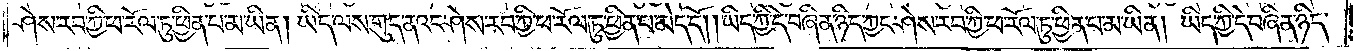ཤེས་རབ་ཀྱི་ཕ་རོལ་ཏུ་ཕྱིན་པ་མ་ཡིན། །ཡིད་ལས་གུད་ནའང་ཤེས་རབ་ཀྱི་ཕ་རོལ་ཏུ་ཕྱིན་པ་མེད་དོ། །ཡིད་ཀྱི་དེ་བཞིན་ཉིད་ཀྱང་ཤེས་རབ་ཀྱི་ཕ་རོལ་ཏུ་ཕྱིན་པ་མ་ཡིན། ཡིད་ཀྱི་དེ་བཞིན་ཉིད་
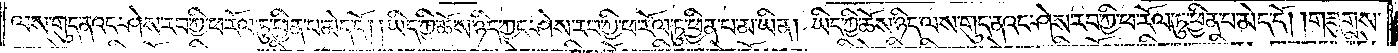ལས་གུད་ནའང་ཤེས་རབ་ཀྱི་ཕ་རོལ་ཏུ་ཕྱིན་པ་མེད་དོ། ། ཡིད་ཀྱི་ཆོས་ཉིད་ཀྱང་ཤེས་རབ་ཀྱི་ཕ་རོལ་ཏུ་ཕྱིན་པ་མ་ཡིན། ཡིད་ཀྱི་ཆོས་ཉིད་ལས་གུད་ནའང་ཤེས་རབ་ཀྱི་ཕ་རོལ་ཏུ་ཕྱིན་པ་མེད་དོ། །གཟུགས་
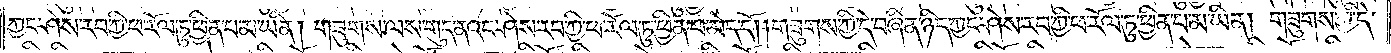ཀྱང་ཤེས་རབ་ཀྱི་ཕ་རོལ་ཏུ་ཕྱིན་པ་མ་ཡིན། གཟུགས་ལས་གུད་ནའང་ཤེས་རབ་ཀྱི་ཕ་རོལ་ཏུ་ཕྱིན་པ་མེད་དོ། །གཟུགས་ཀྱི་དེ་བཞིན་ཉིད་ཀྱང་ཤེས་རབ་ཀྱི་ཕ་རོལ་ཏུ་ཕྱིན་པ་མ་ཡིན། གཟུགས་ཀྱི་དེ་
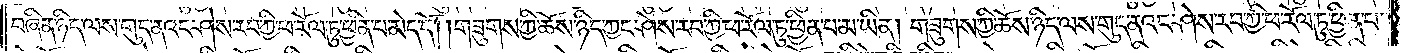བཞིན་ཉིད་ལས་གུད་ནའང་ཤེས་རབ་ཀྱི་ཕ་རོལ་ཏུ་ཕྱིན་པ་མེད་དོ། །གཟུགས་ཀྱི་ཆོས་ཉིད་ཀྱང་ཤེས་རབ་ཀྱི་ཕ་རོལ་ཏུ་ཕྱིན་པ་མ་ཡིན། གཟུགས་ཀྱི་ཆོས་ཉིད་ལས་གུད་ནའང་ཤེས་རབ་ཀྱི་ཕ་རོལ་ཏུ་ཕྱིན་པ་
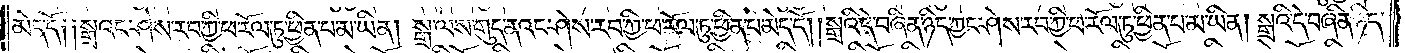མེད་དོ། །སྒྲའང་ཤེས་རབ་ཀྱི་ཕ་རོལ་ཏུ་ཕྱིན་པ་མ་ཡིན། སྒྲ་ལས་གུད་ནའང་ཤེས་རབ་ཀྱི་ཕ་རོལ་ཏུ་ཕྱིན་པ་མེད་དོ། །སྒྲའི་དེ་བཞིན་ཉིད་ཀྱང་ཤེས་རབ་ཀྱི་ཕ་རོལ་ཏུ་ཕྱིན་པ་མ་ཡིན། སྒྲའི་དེ་བཞིན་ཉིད་
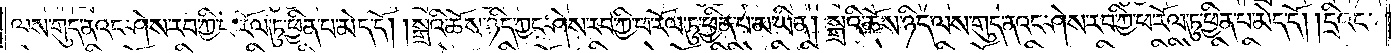ལས་གུད་ནའང་ཤེས་རབ་ཀྱི་ཕ་རོལ་ཏུ་ཕྱིན་པ་མེད་དོ། །སྒྲའི་ཆོས་ཉིད་ཀྱང་ཤེས་རབ་ཀྱི་ཕ་རོལ་ཏུ་ཕྱིན་པ་མ་ཡིན། སྒྲའི་ཆོས་ཉིད་ལས་གུད་ནའང་ཤེས་རབ་ཀྱི་ཕ་རོལ་ཏུ་ཕྱིན་པ་མེད་དོ། །དྲིའང་
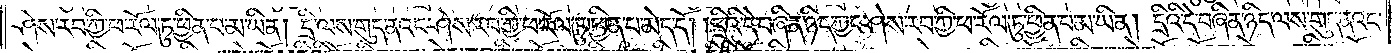ཤེས་རབ་ཀྱི་ཕ་རོལ་ཏུ་ཕྱིན་པ་མ་ཡིན། དྲི་ལས་གུད་ནའང་ཤེས་རབ་ཀྱི་ཕ་རོལ་ཏུ་ཕྱིན་པ་མེད་དོ། །དྲིའི་དེ་བཞིན་ཉིད་ཀྱང་ཤེས་རབ་ཀྱི་ཕ་རོལ་ཏུ་ཕྱིན་པ་མ་ཡིན། དྲིའི་དེ་བཞིན་ཉིད་ལས་གུད་ནའང་
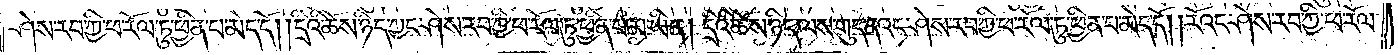ཤེས་རབ་ཀྱི་ཕ་རོལ་ཏུ་ཕྱིན་པ་མེད་དོ། །དྲིའི་ཆོས་ཉིད་ཀྱང་ཤེས་རབ་ཀྱི་ཕ་རོལ་ཏུ་ཕྱིན་པ་མ་ཡིན། དྲིའི་ཆོས་ཉིད་ལས་གུད་ནའང་ཤེས་རབ་ཀྱི་ཕ་རོལ་ཏུ་ཕྱིན་པ་མེད་དོ། །རོའང་ཤེས་རབ་ཀྱི་ཕ་རོལ་
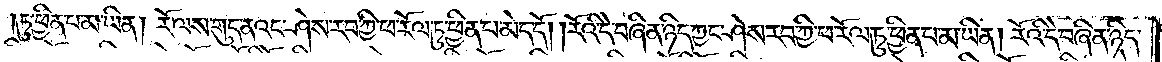ཏུ་ཕྱིན་པ་མ་ཡིན། རོ་ལས་གུད་ནའང་ཤེས་རབ་ཀྱི་ཕ་རོལ་ཏུ་ཕྱིན་པ་མེད་དོ། །རོའི་དེ་བཞིན་ཉིད་ཀྱང་ཤེས་རབ་ཀྱི་ཕ་རོལ་ཏུ་ཕྱིན་པ་མ་ཡིན། རོའི་དེ་བཞིན་ཉིད་
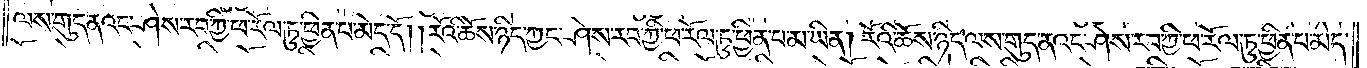ལས་གུད་ནའང་ཤེས་རབ་ཀྱི་ཕ་རོལ་ཏུ་ཕྱིན་པ་མེད་དོ། །རོའི་ཆོས་ཉིད་ཀྱང་ཤེས་རབ་ཀྱི་ཕ་རོལ་ཏུ་ཕྱིན་པ་མ་ཡིན། རོའི་ཆོས་ཉིད་ལས་གུད་ནའང་ཤེས་རབ་ཀྱི་ཕ་རོལ་ཏུ་ཕྱིན་པ་མེད་
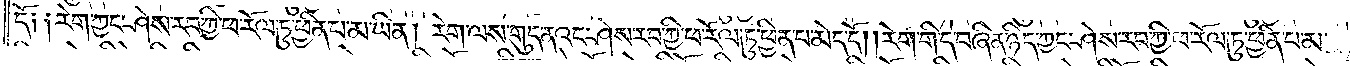དོ། །རེག་ཀྱང་ཤེས་རབ་ཀྱི་ཕ་རོལ་ཏུ་ཕྱིན་པ་མ་ཡིན། རེག་ལས་གུད་ནའང་ཤེས་རབ་ཀྱི་ཕ་རོལ་ཏུ་ཕྱིན་པ་མེད་དོ། །རེག་གི་དེ་བཞིན་ཉིད་ཀྱང་ཤེས་རབ་ཀྱི་ཕ་རོལ་ཏུ་ཕྱིན་པ་མ་
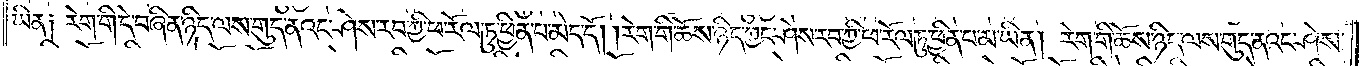ཡིན། རེག་གི་དེ་བཞིན་ཉིད་ལས་གུད་ནའང་ཤེས་རབ་ཀྱི་ཕ་རོལ་ཏུ་ཕྱིན་པ་མེད་དོ། །རེག་གི་ཆོས་ཉིད་ཀྱང་ཤེས་རབ་ཀྱི་ཕ་རོལ་ཏུ་ཕྱིན་པ་མ་ཡིན། རེག་གི་ཆོས་ཉིད་ལས་གུད་ནའང་ཤེས་
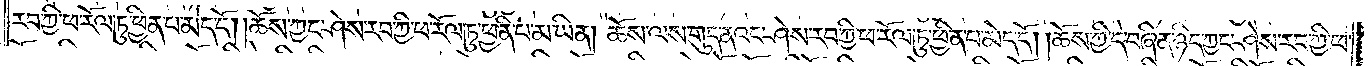རབ་ཀྱི་ཕ་རོལ་ཏུ་ཕྱིན་པ་མེད་དོ། །ཆོས་ཀྱང་ཤེས་རབ་ཀྱི་ཕ་རོལ་ཏུ་ཕྱིན་པ་མ་ཡིན། ཆོས་ལས་གུད་ནའང་ཤེས་རབ་ཀྱི་ཕ་རོལ་ཏུ་ཕྱིན་པ་མེད་དོ། །ཆོས་ཀྱི་དེ་བཞིན་ཉིད་ཀྱང་ཤེས་རབ་ཀྱི་ཕ་
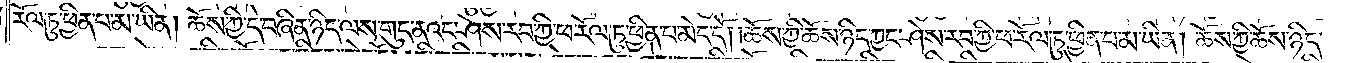རོལ་ཏུ་ཕྱིན་པ་མ་ཡིན། ཆོས་ཀྱི་དེ་བཞིན་ཉིད་ལས་གུད་ནའང་ཤེས་རབ་ཀྱི་ཕ་རོལ་ཏུ་ཕྱིན་པ་མེད་དོ། །ཆོས་ཀྱི་ཆོས་ཉིད་ཀྱང་ཤེས་རབ་ཀྱི་ཕ་རོལ་ཏུ་ཕྱིན་པ་མ་ཡིན། ཆོས་ཀྱི་ཆོས་ཉིད་
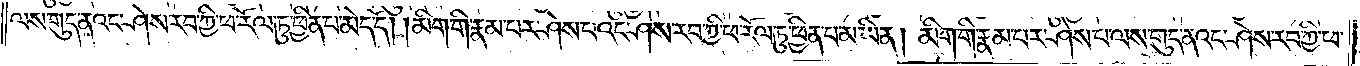ལས་གུད་ནའང་ཤེས་རབ་ཀྱི་ཕ་རོལ་ཏུ་ཕྱིན་པ་མེད་དོ། །མིག་གི་རྣམ་པར་ཤེས་པའང་ཤེས་རབ་ཀྱི་ཕ་རོལ་ཏུ་ཕྱིན་པ་མ་ཡིན། མིག་གི་རྣམ་པར་ཤེས་པ་ལས་གུད་ནའང་ཤེས་རབ་ཀྱི་ཕ་
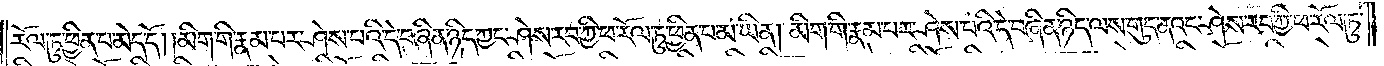རོལ་ཏུ་ཕྱིན་པ་མེད་དོ། །མིག་གི་རྣམ་པར་ཤེས་པའི་དེ་བཞིན་ཉིད་ཀྱང་ཤེས་རབ་ཀྱི་ཕ་རོལ་ཏུ་ཕྱིན་པ་མ་ཡིན། མིག་གི་རྣམ་པར་ཤེས་པའི་དེ་བཞིན་ཉིད་ལས་གུད་ནའང་ཤེས་རབ་ཀྱི་ཕ་རོལ་ཏུ་
